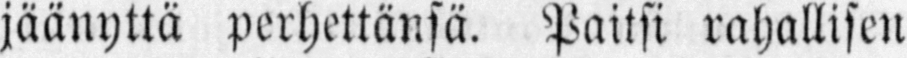jäänyttä perhettänsä. Paitsi rahallisen
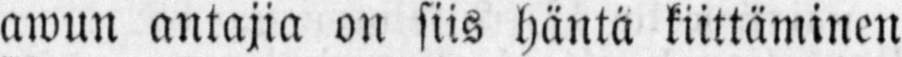awun antajia on siis häntä kiittäminen
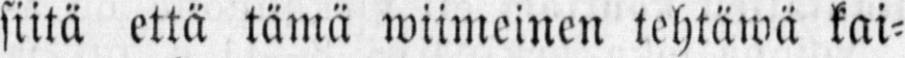siitä että tämä wiimeinen tehtäwä kai-
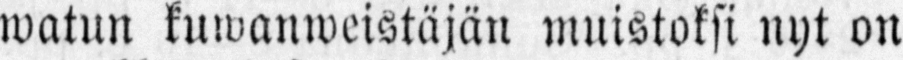watun kuwanweistäjän muistoksi nyt on
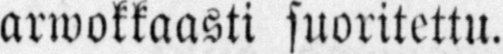arwokkaasti suoritettu.
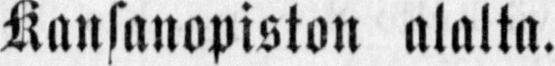Kansanopiston alalta.
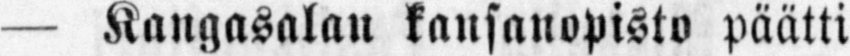— Kangasalan kansanopisto päätti
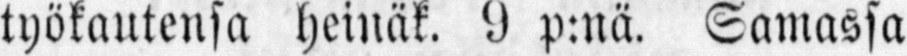työkautensa heinäk. 9 p:nä. Samassa
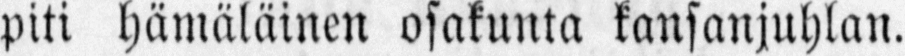piti hämäläinen osakunta kansanjuhlan.
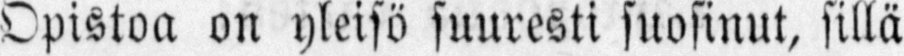Opistoa on yleisö suuresti suosinut, sillä
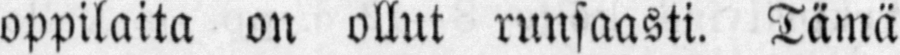oppilaita on ollut runsaasti. Tämä
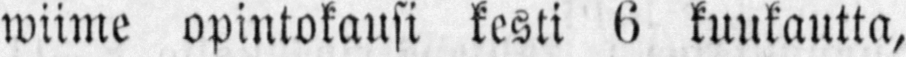wiime opintokausi kesti 6 kuukautta,
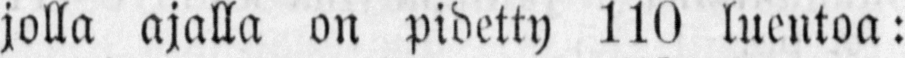jolla ajalla on pidetty 110 luentoa:
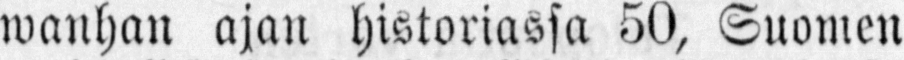wanhan ajan historiassa 50, Suomen
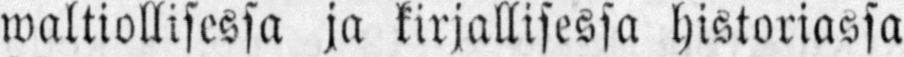waltiollisessa ja kirjallisessa historiassa
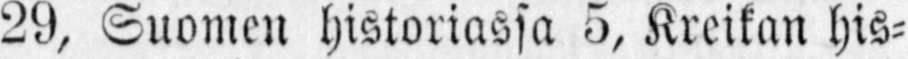29, Suomen historiassa 5, Kreikan his-
